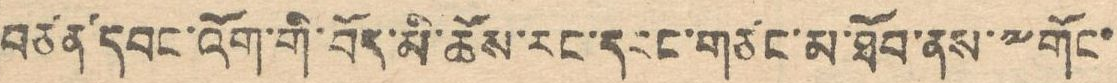བཙན་དབང་འོག་གི་བོད་མི་ཚོས་རང་དབང་གཙང་མ་ཐོབ་ནས་༸གོང་
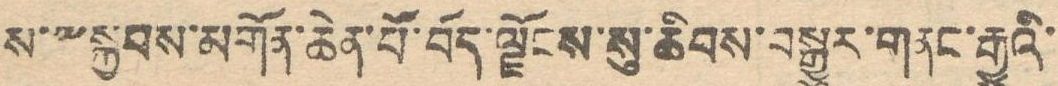ས་༸སྐྱབས་མགོན་ཆེན་པོ་བོད་ལྗོངས་སུ་ཆིབས་བསྒྱུར་གནང་རྒྱུའི་
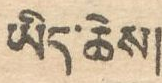ཡིད་ཆེས།
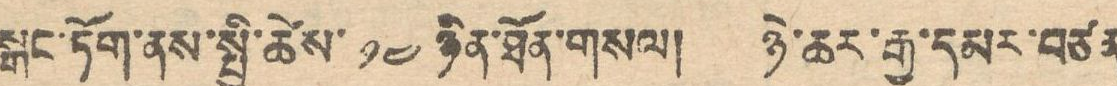སྒང་ཏོག་ནས་སྤྱི་ཚེས་ ༡༤ ཉིན་ཐོན་གསལ། ཉེ་ཆར་རྒྱ་དམར་བཙན་
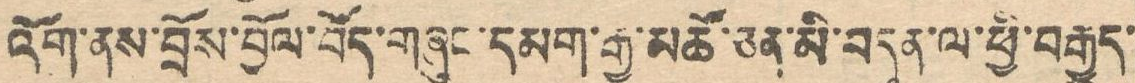འོག་ནས་བྲོས་བྱོལ་བོད་གཞུང་དམག་རྒྱ་མཚོ་བན་མི་བདུན་ལ་ཕྱི་བརྒྱུད་
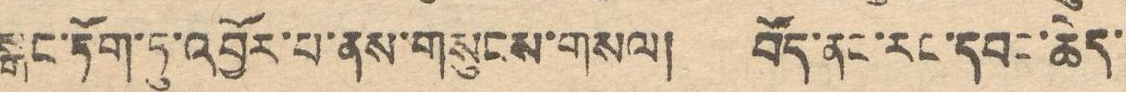སྒང་ཏོག་ཏུ་འབྱོར་པ་ནས་གསུངས་གསལ། བོད་ནས་རང་དབང་ཆེད་
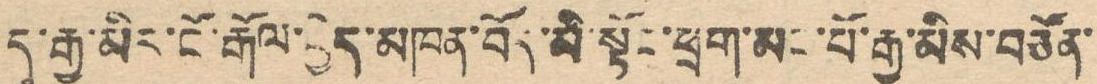དུ་རྒྱ་མིར་ངོ་རྒོལ་བྱེད་མཁན་བོད་མི་སྟོང་ཕྲག་མང་པོ་རྒྱ་མིས་བཙོན་
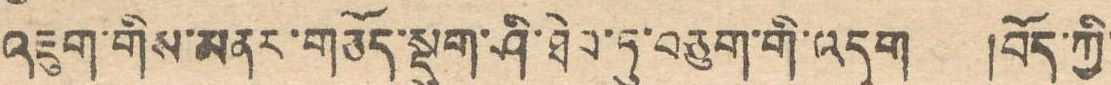འཇུག་གིས་མནར་གཅོད་སྡུག་ཤི་ཐེབ་ཏུ་བཅུག་གི་འདུག །བོད་ཀྱི་
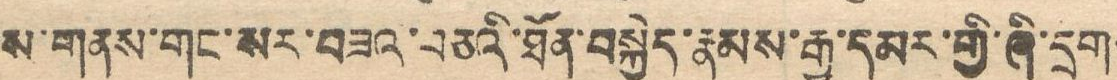ས་གནས་གང་སར་བཟའ་བཅའི་ཏོན་བསྐྱེད་རྣམས་རྒྱ་དམར་གྱི་ཞི་དྲག་
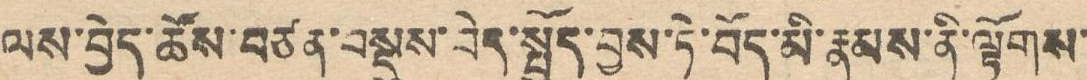ལས་བྱེད་ཚོས་བཙན་བསྡུས་བདེ་སྤྱོད་བྱས་ཏེ་བོད་མི་རྣམས་ནི་ལྟོགས་
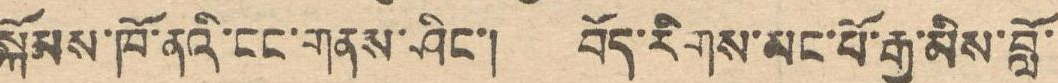སྐོམས་ཁོ་ནའི་ངང་གནས་ཤིང་། བོད་རིགས་མང་པོ་རྒྱ་མིས་བློ་
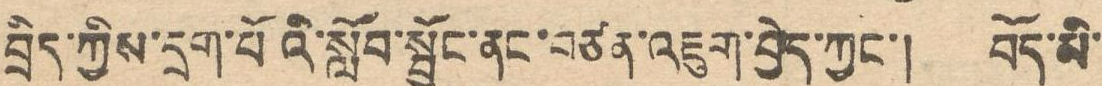བྲིད་ཀྱིས་དྲག་པོའི་སློབ་སྦྱོང་ནང་བཙན་འཇུག་བྱེད་ཀྱང་། བོད་མི་
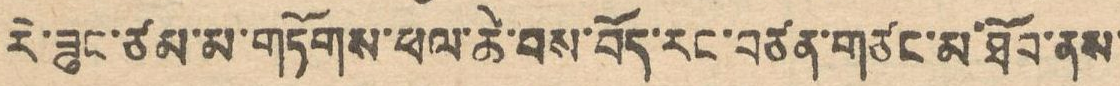རེ་ཟུང་ཙམ་མ་གཏོགས་ཕལ་ཆེ་བས་བོད་རང་བཙན་གཙང་མ་ཐོབ་ནས་
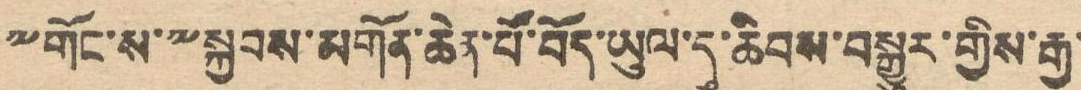༸གོང་ས་༸སྐྱབས་མགོན་ཆེན་པོ་བོད་ཡུལ་དུ་ཆིབས་བསྒྱུར་གྱིས་རྒྱ་
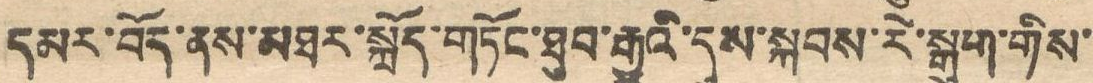དམར་བོད་ནས་མཐར་སྐྲོད་གཏོང་ཐུབ་རྒྱུའི་དུས་སྐབས་རེ་སྒུག་གིས་
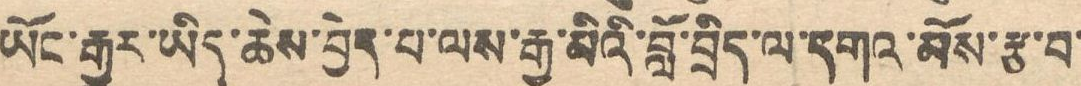ཡོང་རྒྱུར་ཡིད་ཆེས་བྱེད་པ་ལས་རྒྱ་མིའི་བློ་བྲིད་ལ་དགའ་མོས་རྩ་བ་
